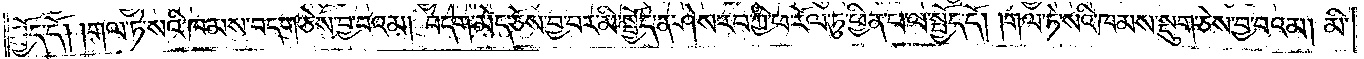སྤྱོད་དོ། །གལ་ཏེ་སའི་ཁམས་བདག་ཅེས་བྱ་བའམ། བདག་མེད་ཅེས་བྱ་བར་མི་སྤྱོད་ན་ཤེས་རབ་ཀྱི་ཕ་རོལ་ཏུ་ཕྱིན་པ་ལ་སྤྱོད་དོ། །གལ་ཏེ་སའི་ཁམས་སྡུག་ཅེས་བྱ་བའམ། མི་
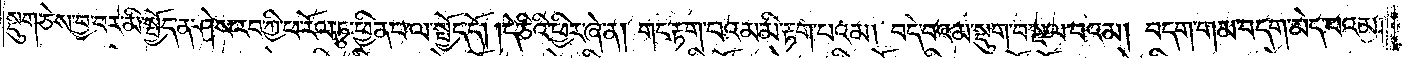སྡུག་ཅེས་བྱ་བར་མི་སྤྱོད་ན་ཤེས་རབ་ཀྱི་ཕ་རོལ་ཏུ་ཕྱིན་པ་ལ་སྤྱོད་དོ། །དེ་ཅིའི་ཕྱིར་ཞེ་ན། གང་རྟག་པའམ་མི་རྟག་པའམ། བདེ་བའམ་སྡུག་བསྔལ་བའམ། བདག་གམ་བདག་མེད་པའམ།
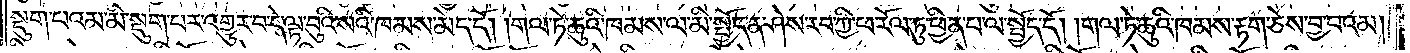སྡུག་པའམ་མི་སྡུག་པར་འགྱུར་བ་དེ་ལྟ་བུའི་སའི་ཁམས་མེད་དོ། །གལ་ཏེ་ཆུའི་ཁམས་ལ་མི་སྤྱོད་ན་ཤེས་རབ་ཀྱི་ཕ་རོལ་ཏུ་ཕྱིན་པ་ལ་སྤྱོད་དོ། །གལ་ཏེ་ཆུའི་ཁམས་རྟག་ཅེས་བྱ་བའམ།
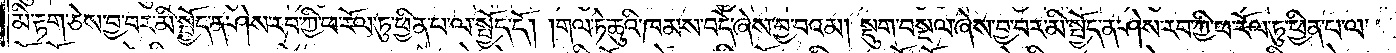མི་རྟག་ཅེས་བྱ་བར་མི་སྤྱོད་ན་ཤེས་རབ་ཀྱི་ཕ་རོལ་ཏུ་ཕྱིན་པ་ལ་སྤྱོད་དོ། །གལ་ཏེ་ཆུའི་ཁམས་བདེ་ཞེས་བྱ་བའམ། སྡུག་བསྔལ་ཞེས་བྱ་བར་མི་སྤྱོད་ན་ཤེས་རབ་ཀྱི་ཕ་རོལ་ཏུ་ཕྱིན་པ་ལ་
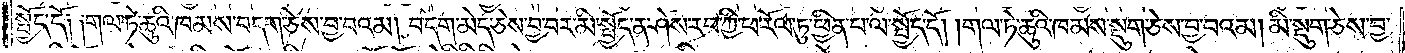སྤྱོད་དོ༑ ༑གལ་ཏེ་ཆུའི་ཁམས་བདག་ཅེས་བྱ་བའམ། བདག་མེད་ཅེས་བྱ་བར་མི་སྤྱོད་ན་ཤེས་རབ་ཀྱི་ཕ་རོལ་ཏུ་ཕྱིན་པ་ལ་སྤྱོད་དོ། །གལ་ཏེ་ཆུའི་ཁམས་སྡུག་ཅེས་བྱ་བའམ། མི་སྡུག་ཅེས་བྱ་
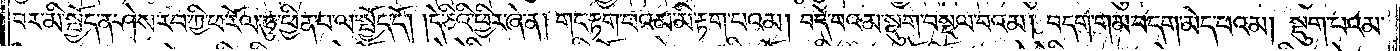བར་མི་སྤྱོད་ན་ཤེས་རབ་ཀྱི་ཕ་རོལ་ཏུ་ཕྱིན་པ་ལ་སྤྱོད་དོ། །དེ་ཅིའི་ཕྱིར་ཞེ་ན། གང་རྟག་པའམ་མི་རྟག་པའམ། བདེ་བའམ་སྡུག་བསྔལ་བའམ། བདག་གམ་བདག་མེད་པའམ། སྡུག་པའམ་
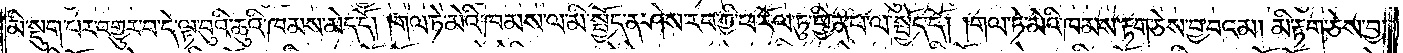མི་སྡུག་པར་འགྱུར་བ་དེ་ལྟ་བུའི་ཆུའི་ཁམས་མེད་དོ། །གལ་ཏེ་མེའི་ཁམས་ལ་མ་སྤྱོད་ན་ཤེས་རབ་ཀྱི་ཕ་རོལ་ཏུ་ཕྱིན་པ་ལ་སྤྱོད་དོ། །གལ་ཏེ་མེའི་ཁམས་རྟག་ཅེས་བྱ་བའམ། མི་རྟག་ཅེས་བྱ་
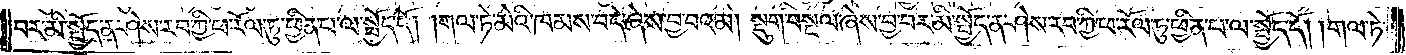བར་མི་སྤྱོད་ན་ཤེས་རབ་ཀྱི་ཕ་རོལ་ཏུ་ཕྱིན་པ་ལ་སྤྱོད་དོ། །གལ་ཏེ་མེའི་ཁམས་བདེ་ཞེས་བྱ་བའམ། སྡུག་བསྔལ་ཞེས་བྱ་བར་མི་སྤྱོད་ན་ཤེས་རབ་ཀྱི་ཕ་རོལ་ཏུ་ཕྱིན་པ་ལ་སྤྱོད་དོ། །གལ་ཏེ་
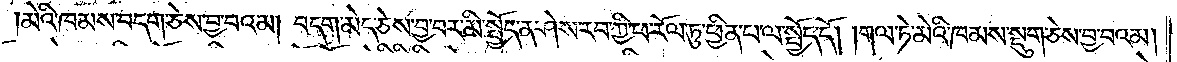མེའི་ཁམས་བདག་ཅེས་བྱ་བའམ། བདག་མེད་ཅེས་བྱ་བར་མི་སྤྱོད་ན་ཤེས་རབ་ཀྱི་ཕ་རོལ་ཏུ་ཕྱིན་པ་ལ་སྤྱོད་དོ། །གལ་ཏེ་མེའི་ཁམས་སྡུག་ཅེས་བྱ་བའམ།
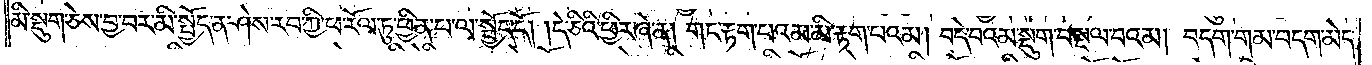མི་སྡུག་ཅེས་བྱ་བར་མི་སྤྱོད་ན་ཤེས་རབ་ཀྱི་ཕ་རོལ་ཏུ་ཕྱིན་པ་ལ་སྤྱོད་དོ། །དེ་ཅིའི་ཕྱིར་ཞེ་ན། གང་རྟག་པའམ་མི་རྟག་པའམ། བདེ་བའམ་སྡུག་བསྔལ་བའམ། བདག་གམ་བདག་མེད་
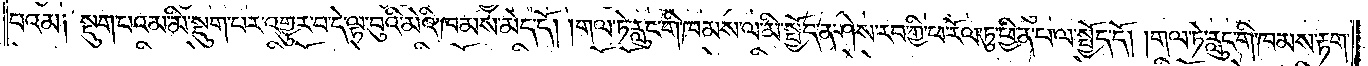པའམ༑ སྡུག་པའམ་མི་སྡུག་པར་འགྱུར་བ་དེ་ལྟ་བུའི་མེའི་ཁམས་མེད་དོ། །གལ་ཏེ་རླུང་གི་ཁམས་ལ་མི་སྤྱོད་ན་ཤེས་རབ་ཀྱི་ཕ་རོལ་ཏུ་ཕྱིན་པ་ལ་སྤྱོད་དོ། །གལ་ཏེ་རླུང་གི་ཁམས་རྟག་
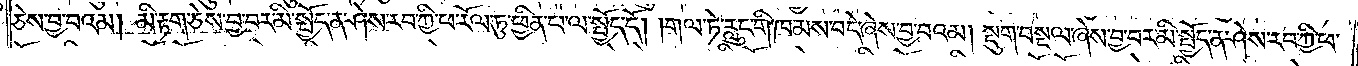ཅེས་བྱ་བའམ། མི་རྟག་ཅེས་བྱ་བར་མི་སྤྱོད་ན་ཤེས་རབ་ཀྱི་ཕ་རོལ་ཏུ་ཕྱིན་པ་ལ་སྤྱོད་དོ། །གལ་ཏེ་རླུང་གི་ཁམས་བདེ་ཞེས་བྱ་བའམ། སྡུག་བསྔལ་ཞེས་བྱ་བར་མི་སྤྱོད་ན་ཤེས་རབ་ཀྱི་ཕ་
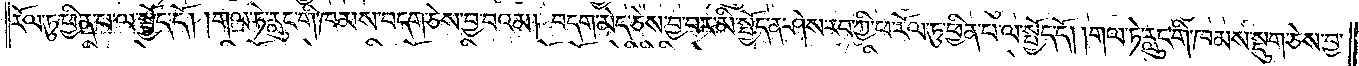རོལ་ཏུ་ཕྱིན་པ་ལ་སྤྱོད་དོ། །གལ་ཏེ་རླུང་གི་ཁམས་བདག་ཅེས་བྱ་བའམ། བདག་མེད་ཅེས་བྱ་བར་མི་སྤྱོད་ན་ཤེས་རབ་ཀྱི་ཕ་རོལ་ཏུ་ཕྱིན་པ་ལ་སྤྱོད་དོ། །གལ་ཏེ་རླུང་གི་ཁམས་སྡུག་ཅེས་བྱ་
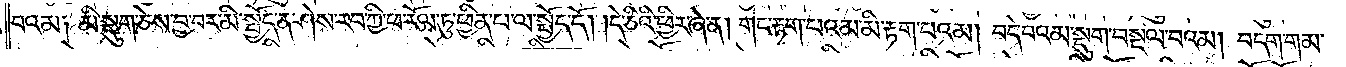བའམ༑ མི་སྡུག་ཅེས་བྱ་བར་མི་སྤྱོད་ན་ཤེས་རབ་ཀྱི་ཕ་རོལ་ཏུ་ཕྱིན་པ་ལ་སྤྱོད་དོ། །དེ་ཅིའི་ཕྱིར་ཞེ་ན། གང་རྟག་པའམ་མི་རྟག་པའམ། བདེ་བའམ་སྡུག་བསྔལ་བའམ། བདག་གམ་
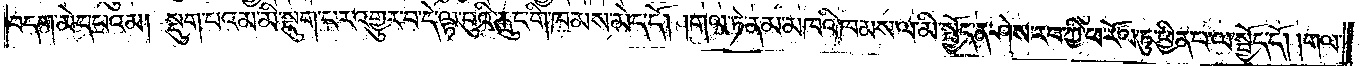བདག་མེད་པའམ། སྡུག་པའམ་མི་སྡུག་པར་འགྱུར་བ་དེ་ལྟ་བུའི་རླུང་གི་ཁམས་མེད་དོ། །གལ་ཏེ་ནམ་མཁའི་ཁམས་ལ་མི་སྤྱོད་ན་ཤེས་རབ་ཀྱི་ཕ་རོལ་ཏུ་ཕྱིན་པ་ལ་སྤྱོད་དོ། །གལ་
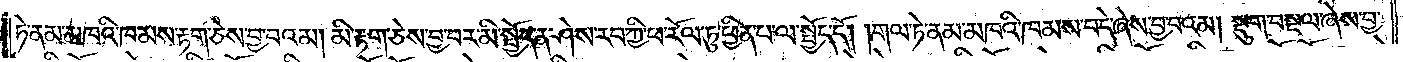ཏེ་ནམ་མཁའི་ཁམས་རྟག་ཅེས་བྱ་བའམ། མི་རྟག་ཅེས་བྱ་བར་མི་སྤྱོད་ན་ཤེས་རབ་ཀྱི་ཕ་རོལ་ཏུ་ཕྱིན་པ་ལ་སྤྱོད་དོ། །གལ་ཏེ་ནམ་མཁའི་ཁམས་བདེ་ཞེས་བྱ་བའམ། སྡུག་བསྔལ་ཞེས་བྱ་
